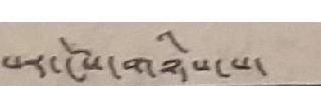པར་ངོས་གཉིས་པ་ སྤྱི་ལོ་༡༩༥༤་ཟླ་༡་ཚེས་༢༦་ལ་
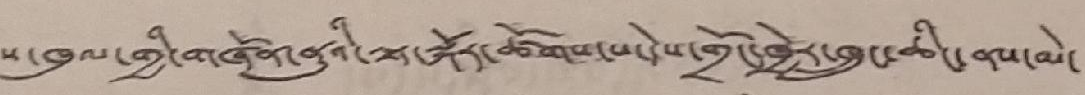ས་ཁུལ་གྱི་གཞོན་ནུའི་ལྟ་སྐོར་ཚོགས་པ་དེས་གྲོང་ཁྱེར་ཁྲུང་ཆིང་ནས་མེ་
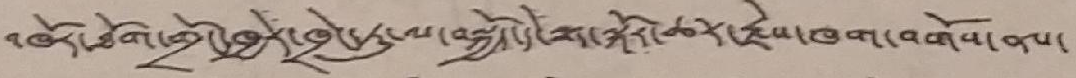འཁོར་ཐོག་གྲོང་ཁྱེར་ཁྲེང་ཏུ་ལ་བསྐྱོད་དེ་ལྟ་སྐོར་ཚར་རྗེས་ཁག་བགོས་ནས་
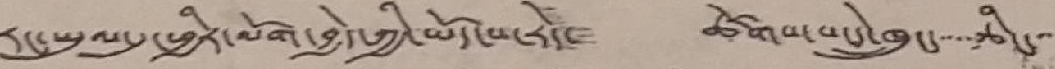རང་ཡུལ་དུ་ཕྱིར་ལོག་བྱེད་ཀྱི་ཡོད་པ་རེད་ ཚོགས་པ་དེ་ཁྲུང་ཆིང་་
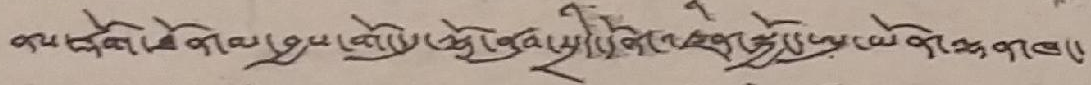ནས་རྡོག་ཐོན་མ་བྱས་གོང་དུ་ལྷོ་ནུབ་སྲིད་དོན་འཛིན་སྐྱོང་ཨུ་ཡོན་ལྷན་ཁང་
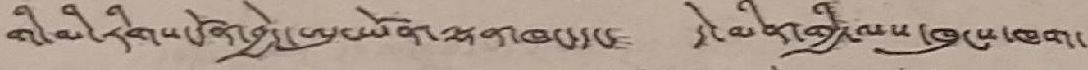གི་མི་རིགས་དོན་བྱེད་ཨུ་ཡོན་ལྷན་ཁང་དང་ དེ་མིན་གྱི་ལས་ཁུངས་ཁག་
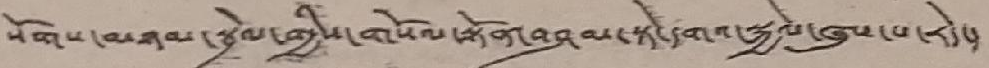སོགས་མཉམ་སྦྲེལ་གྱིས་གསོལ་སྟོན་བཤམ་སྟེ་དགའ་སྐྱེལ་ཞུས་པ་རེད་།
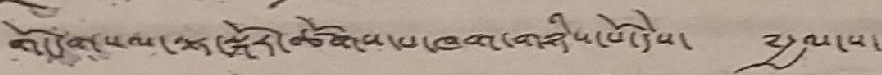གོང་གསལ་ལྟ་སྐོར་ཚོགས་པ་ཁག་གཉིས་པོ་དེས་ ༸རྒྱལ་ས་
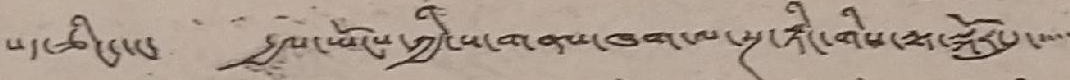པད་ཅིང་དང་ རྒྱལ་ཡོངས་ཀྱི་ས་གནས་ཁག་ལ་སྔ་རྟིང་གིས་ལྟ་སྐོར་དུ་་་་་
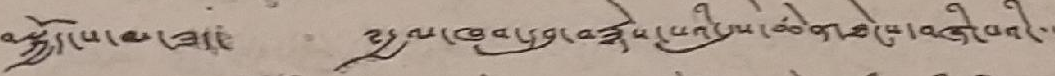བསྐྱོད་པ་མ་ཟད་ ༸རྒྱལ་ཁབ་དབུ་བརྙེས་པའི་དུས་ཆེན་ཐེངས་བཞི་པའི་་་
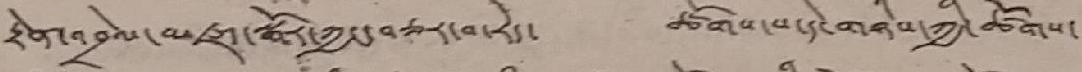རྟེན་འབྲེལ་མཛད་སྒོར་ཀྱང་བཅར་བ་རེད་ ཚོགས་པ་དེ་གཉིས་ཀྱི་ཚོགས་
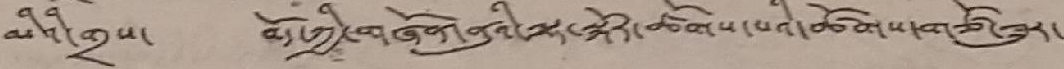མིའི་གྲས་ བོད་ཀྱི་གཞོན་ནུའི་ལྟ་སྐོར་ཚོགས་པའི་ཚོགས་གཙོ་ཟུར་
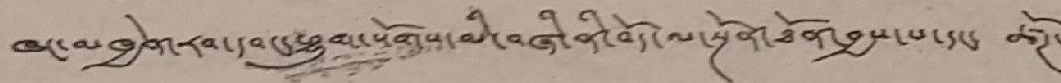ཁང་མཁྱེནན་རབ་དབང་ཕྱུག་སོགས་མི་བཞི་ནི་བོད་ལ་སྔོན་ཐོན་བྱས་པ་དང་ ཚོཊ་
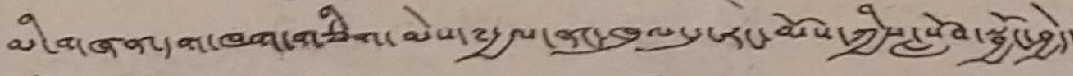མི་གཞན་དག་གཅིག་མེས་༸རྒྱལ་ནང་ཁུལ་དུ་རང་མོས་ཀྱིས་སློབ་སྦྱོང་བྱེད་
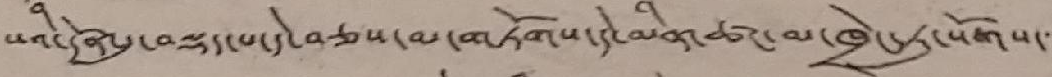པའི་དོན་དུ་བསྡད་པ་དེ་བཅས་མ་གཏོགས་དེ་མིན་ཚང་མ་ཁྲེང་ཏུ་སོགས་་་
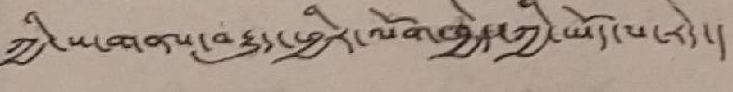ཀྱི་ས་གནས་བརྒྱུད་ཕྱིར་ལོག་ཁྱེད་ཀྱི་ཡོད་པ་རེད་།
